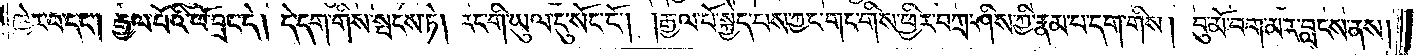ཁྱེར་བ་དང༌། རྒྱལ་པོའི་ཕོ་བྲང་དེ། དེ་དག་གིས་སྤངས་ཏེ། རང་གིས་ཡུལ་དུ་སོང་ངོ༌། །རྒྱལ་པོ་སྐྱེད་པས་ཀྱང་གང་གིས་ཕྱིར་བཀྲ་ཤིས་ཀྱི་རྣམ་པ་དག་གིས། བུ་མོ་བག་མར་བླངས་ནས་
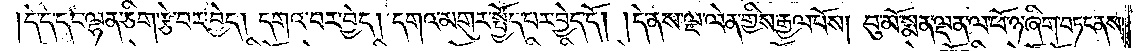དེ་དེ་དང་ལྷན་ཅིག་རྩེ་བར་བྱེད། དགའ་བར་བྱེད། དགའ་མགུར་སྤྱོད་པར་བྱེད་དོ། །དེ་ནས་ལྔ་ལེན་གྱིས་རྒྱལ་པོས། བུ་མོ་སྨན་ལྡན་ལ་ཕོ་ཉ་ཞིག་བཏང་ནས་
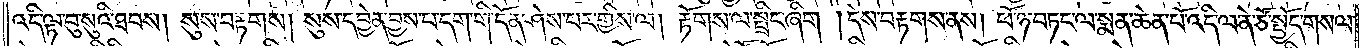འདི་ལྟ་བུ་སུའི་ཐབས། སུས་བརྟགས། སུས་དབྱེན་བྱས་པ་དག་གི་དོན་ཤེས་པར་གྱིས་ལ། རྟོགས་ལ་སྤྲིང་ཞིག །དེས་བརྟགས་ནས། ཕོ་ཉ་བཏང་ལ་སྨན་ཆེན་པོ་འདི་ལ་ནེ་ཙོ་སྤྱོད་གསལ་
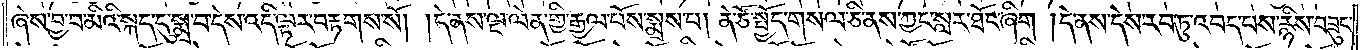ཞེས་བྱ་བ་མིའི་སྐད་དུ་སྨྲ་བ་དེས་འདི་ལྟར་བརྟགས་སོ། །དེ་ནས་ལྔ་ལེན་གྱི་རྒྱལ་པོས་སྨྲས་པ། ནེ་ཙོ་སྤྱོད་གསལ་ཅི་ནས་ཀྱང་སླར་ཐོང་ཞིག །དེ་ནས་དེས་རབ་ཏུ་འབད་པས་རྙིས་བཟུང་
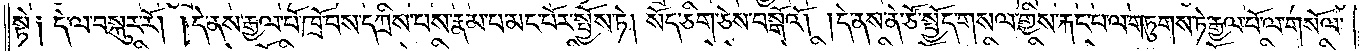སྟེ༑ དེ་ལ་བསྐུར་རོ། །དེ་ནས་རྒྱལ་པོ་ཁྲོ་བས་དཀྲིས་པས་རྣམ་པ་མང་པོར་སྤྱོས་ཏེ། སོད་ཅིག་ཅེས་བསྒོའོ། །དེ་ནས་ནེ་ཙོ་སྤྱོད་གསལ་གྱིས་རྐང་པ་ལ་གཏུགས་ཏེ་རྒྱལ་པོ་ལ་གསོལ་
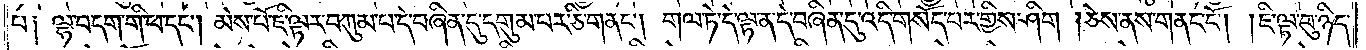པ༑ ལྷ་བདག་གི་ཕ་དང༌། མེས་པོ་ཇི་ལྟར་བཀུམ་པ་དེ་བཞིན་དུ་དགུམ་པར་ཅི་གནང༌། གལ་ཏེ་དེ་ལྟ་ན་དེ་བཞིན་དུ་འདི་གསོད་པར་གྱིས་ཤིག །ཅེས་ནས་གནང་ངོ༌། །ཇི་ལྟ་བུ་ཉིད་
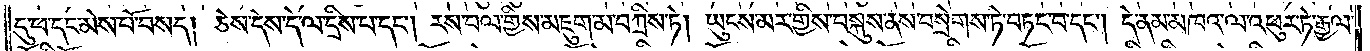དུ་ཕ་དང་མེས་པོ་བསད། ཅེས་དེས་དེ་ལ་དྲིས་པ་དང༌། རས་བལ་གྱིས་མཇུག་མ་བཀྲིས་ཏེ། ཡུངས་མར་གྱིས་བསྐུས་ནས་བསྲེགས་ཏེ་བཏང་བ་དང༌། དེ་ནམ་མཁའ་ལ་འཕུར་ཏེ་རྒྱལ་
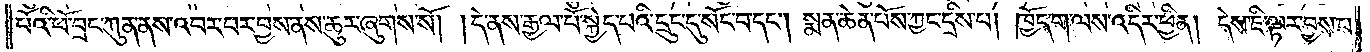པོའི་ཕོ་བྲང་ཀུན་ནས་འབར་བར་བྱས་ནས་ཆུར་ཞུགས་སོ། །དེ་ནས་རྒྱལ་པོ་སྐྱེད་པའི་དྲུང་དུ་སོང་བ་དང༌། སྨན་ཆེན་པོས་ཀྱང་དྲིས་པ། ཁྱོད་ག་ལས་འདིར་ཕྱིན། དེས་ཇི་ལྟར་བྱས་པ་
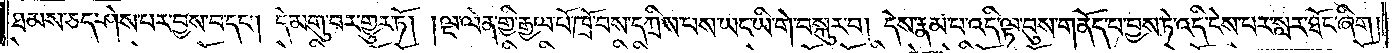ཐམས་ཅད་ཤེས་པར་བྱས་པ་དང༌། དེ་མགུ་བར་གྱུར་ཏོ། །ལྔ་ལེན་གྱི་རྒྱལ་པོ་ཁྲོ་བས་དཀྲིས་པས་ཡང་ཡི་གེ་བསྐུར་བ། དེས་རྣམ་པ་འདི་ལྟ་བུས་གནོད་པ་བྱས་ཏེ་འདི་ངེས་པར་སླར་ཐོང་ཞིག་
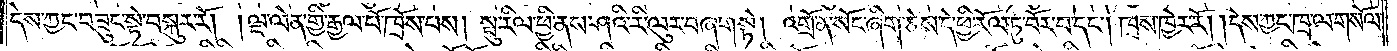དེས་ཀྱང་བཟུང་སྟེ་བསྐུར་རོ། །ལྔ་ལེན་གྱི་རྒྱལ་པོ་ཁྲོས་པས། སྤུ་རིལ་ཕྱི་ནས་ཤའི་རི་ལུར་བཞག་སྟེ། འགྲོ་ན་སོང་ཞིག་ཅེས་དེ་ཕྱི་རོལ་ཏུ་བོར་བ་དང༌། ཁྲས་ཁྱེར་རོ། །དེས་ཀྱང་ཁྲ་ལ་གསོལ་
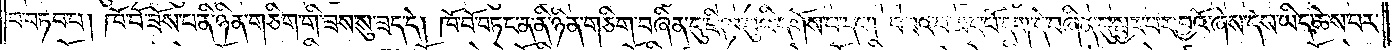བ་བཏབ་པ། ཁོ་བོ་ཟོས་པ་ནི་ཉིན་གཅིག་གི་ཟས་སུ་ཟད་དེ། ཁོ་བོ་བཏང་ན་ནི་ཉིན་གཅིག་བཞིན་དུ་ཇི་ལྟ་བུའི་དགོས་པ་དང༌། བཟའ་བ་མང་པོ་དག་དེ་བཞིན་དུ་སྦྱར་བར་བྱའོ་ཞེས་དེས་ཡིད་ཆེས་པར་
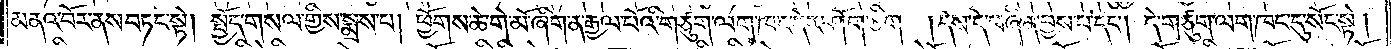མནའ་བོར་ནས་བཏང་སྟེ། སྤྱོད་གསལ་གྱིས་སྨྲས་པ། ཕྱོགས་ཆེ་གེ་མོ་ཞིག་ན་རྒྱལ་པོའི་གཙུག་ལག་ཁང་དེར་ཤོག་ཅིག །དེས་དེ་བཞིན་བྱས་པ་དང༌། དེ་གཙུག་ལག་ཁང་དུ་སོང་སྟེ།
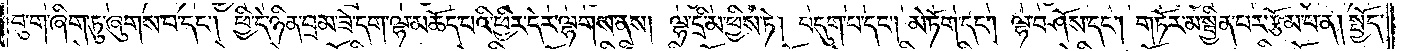བུ་ག་ཞིག་ཏུ་ཞུགས་པ་དང༌། ཕྱི་དེ་ཉིན་བྲམ་ཟེ་དག་ལྷ་མཆོད་པའི་ཕྱིར་དེར་ལྷགས་ནས། ལྷ་དྲི་མ་ཕྱིས་ཏེ། བདུག་པ་དང༌། མེ་ཏོག་དང༌། ལྷ་བཤོས་དང༌། གཏོར་མ་སྦྱིན་པར་རྩོམ་པ་ན། སྤྱོད་
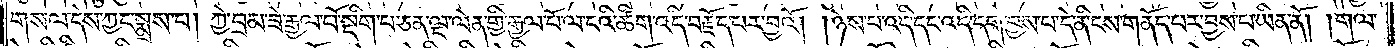གསལ་དེས་ཀྱང་སྨྲས་པ། ཀྱེ་བྲམ་ཟེ་རྒྱལ་པོ་སྡིག་པ་ཅན་ལྔ་ལེན་གྱི་རྒྱལ་པོ་ལ་ངའི་ཚིག་འདི་བརྗོད་པར་བྱའོ། །ཉེས་པ་འདི་དང་འདི་དག་བྱས་པ་དེ་ནི་ངས་གནོད་པར་བྱས་པ་ཡིན་ནོ། །གལ་
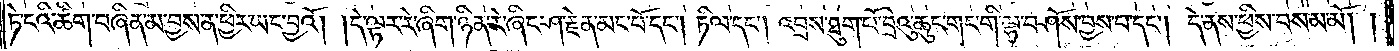ཏེ་ངའི་ཚིག་བཞིན་མ་བྱས་ན་ཕྱིར་ཡང་བྱའོ། །དེ་ལྟར་རེ་ཞིག་ཉིན་རེ་ཞིང་ཤ་རྗེན་མང་པོ་དང༌། ཏིལ་དང༌། འབྲས་ཐུག་པོ་བྲེའུ་ཆུང་གང་གི་ལྷ་བཤོས་བྱས་པ་དང༌། དེ་ནས་ཕྱིས་བསམ་མོ། །
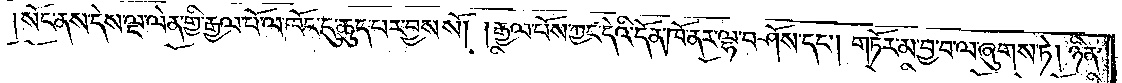སོང་ནས་དེས་ལྔ་ལེན་གྱི་རྒྱལ་པོ་ལ་ཁོང་དུ་ཆུད་པར་བྱས་སོ། །རྒྱལ་པོས་ཀྱང་དེའི་དོན་ཁོ་ནར་ལྷ་བཤོས་དང༌། གཏོར་མ་བྱ་བ་ལ་ཞུགས་ཏེ། ཉིན་
